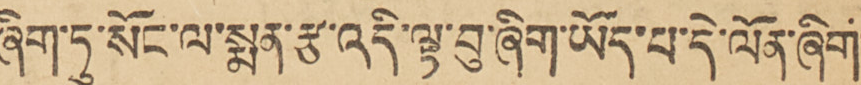ཞིག་ཏུ་སོང་ལ་སྨན་རྩ་འདི་ལྟ་བུ་ཞིག་ཡོད་པ་དེ་ལོན་ཞིག་
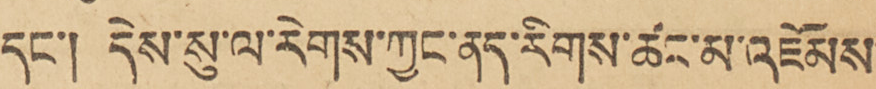དང་། དེས་སུ་ལ་རེགས་ཀྱང་ནད་རིགས་ཚང་མ་འཛོམས་
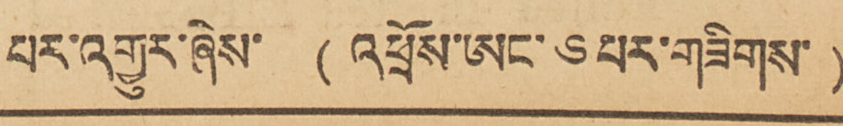པར་འགྱུར་ཞེས་ (འཕྲོས་ཨང་ ༦ པར་གཟིགས་)
